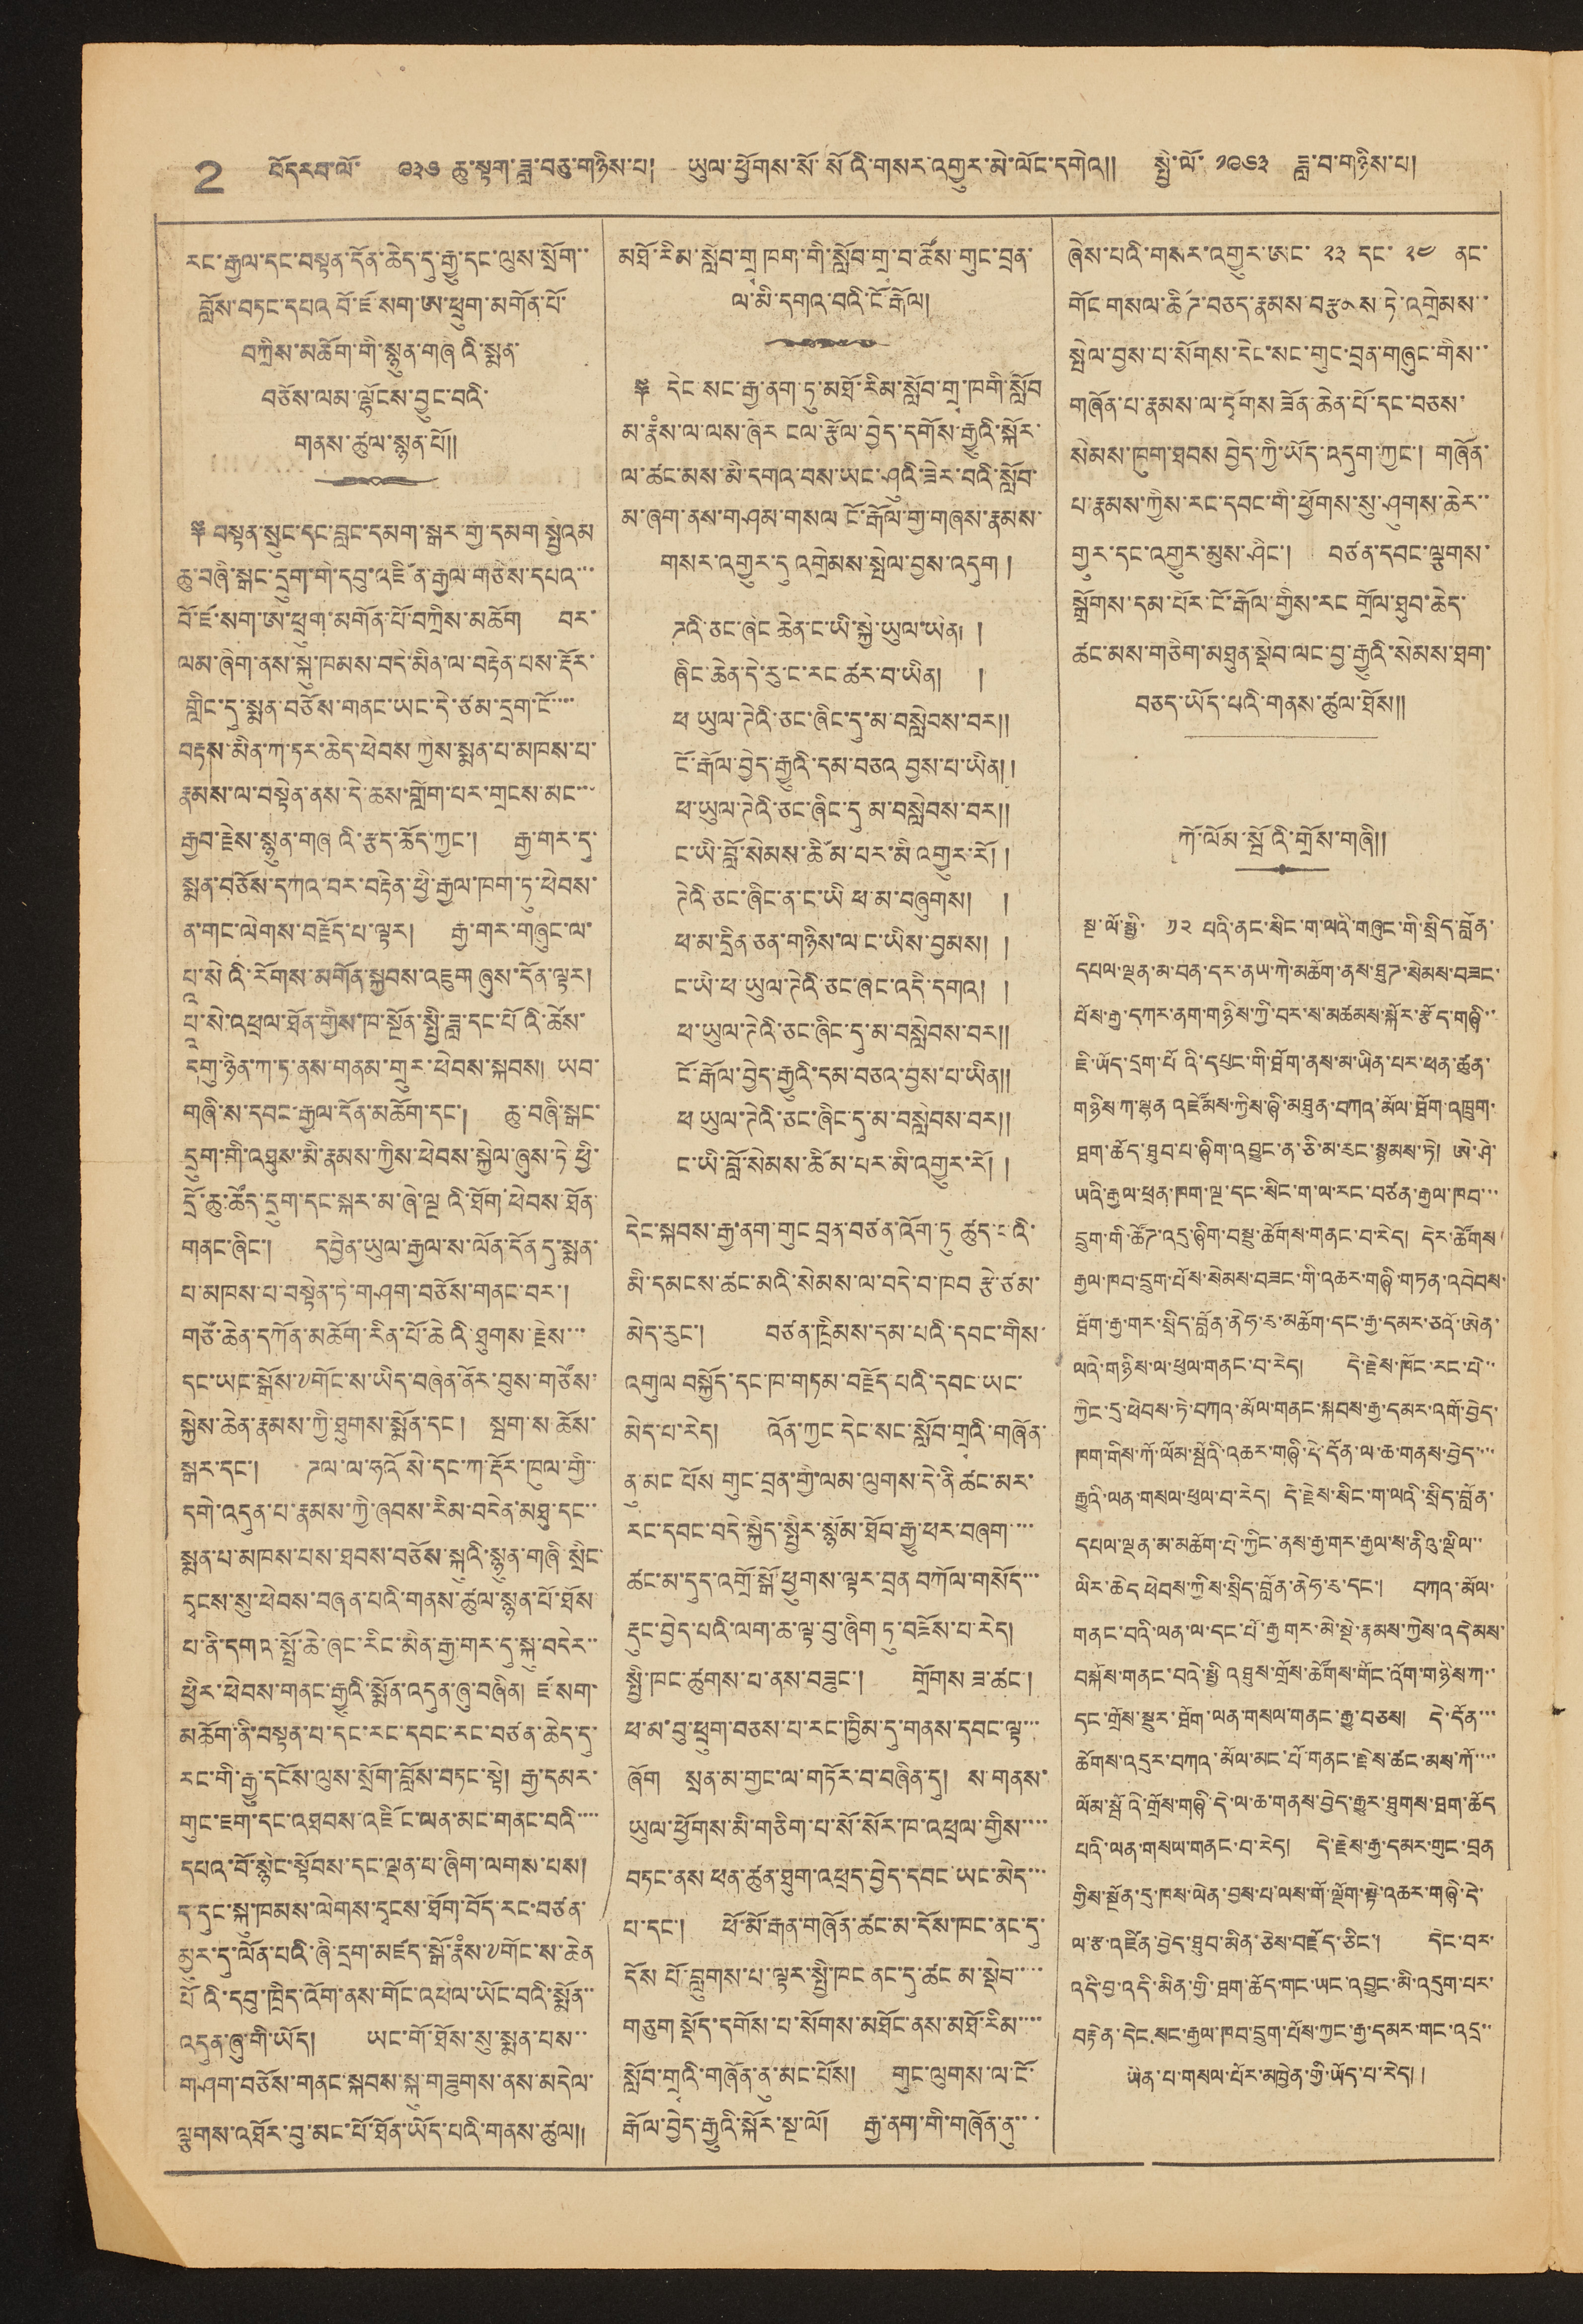2 བོདརབ་ལོ་ ༩༣༦ ཆུ་སྟག་ཟླ་བཅུ་གཉིས་པ། ཡུལ་ཕྱོགས་སོ་སོའི་གསར་འགྱུར་མེ་ལོང་དགེའི།། སྤྱི་ལོ་ ༡༩༦༣ ཟླ་བ་གཉིས་པ།
རང་རྒྱལ་དང་བསྟན་དོན་ཆེད་དུ་རྒྱུ་དང་ལུས་སྲོག་་
བློས་བཏང་དཔའ་བོ་ཇོ་སག་ཨ་ཕྲུག་མགོན་པོ་
བཀྲིས་མཆོག་གི་སྙུན་གཞིའི་སྨན་
བཅོས་ལམ་ལྷོངས་བྱུང་བའི་
གནས་ཚུལ་སྙན་པོ།།
༈ བསྟན་སྲུང་དང་བླང་དམག་སྒར་གྱ་དམག སྤྱིའམ་
ཆུ་བཞི་སྒང་དྲུག་གི་དབུ་འཛིན་རྒྱལ་གཅེས་དཔའ་་་
བོ་ཇོ་སག་ཨ་ཕྲུག་མགོན་པོ་བཀྲིས་མཆོག བར་
ལམ་ཞིག་ནས་སྐུ་ཁམས་བདེ་མིན་ལ་བརྟེན་པས་རྡོར་
གླིང་དུ་སྨན་བཅོས་གནང་ཡང་དེ་ཙམ་དྲག་ངོ་་་་
བརྟན་མིན་ཀ་ཏར་ཆེད་ཕེབས ཀྱིས་སྨན་པ་མཁས་པ་
རྣམས་ལ་བསྟེན་ནས་དེ་ཆས་གློག་པར་གྲངས་མང་་་
རྒྱབ་རྗེས་སྙུན་གཞའི་རྩད་ཆོད་ཀྱང་། རྒྱ་གར་དུ་
སྨན་བཅོས་དཀའ་བར་བརྟེན་ཕྱི་རྒྱལ་ཁག་ཏུ་ཕེབས་
ན་གང་ལེགས་བརྗོད་པ་ལྟར། རྒྱ་གར་གཞུང་ལ་
པཱ་སེའི་རོགས་མགོན་སྐྱབས་འཇུག ཞུས་དོན་ལྟར།
པཱ་སེ་འཕྲན་ཐོན་གྱིས་ཁ་སྔོན་ཟླ་དང་པོའི་ཚེས་
དགུ་ཉིན་ཀ་ཏ་ནས་གནམ་གྲུར་ཕེབས་སྐབས། ཡབ་
གཞི་ས་དབང་རྒྱལ་དོན་མཆོག་དང་། ཆུ་བཞི་སྒང་
དྲུག་གི་འཐུས་མི་རྣམས་ཀྱིས་ཕེབས་སྐྱེལ་ཞུས་ཏེ་ཕྱི་
དྲོ་ཆུ་ཚོད་དྲུག་དང་སྐར་མ་ཞེ་ལྔའི་ཐོག་ཕེབས་ཐོན་
གནང་ཞིང་། དབྱིན་ཡུལ་རྒྱལ་ས་ལོན་དོན དུ་སྨན་
པ་མཁས་པ་བསྟེན་ཏེ་གཤག་བཅོས་གནང་བར་།
གཙོ་ཆེན་དཀོན་མཆོག་རིན་པོ་ཆེའི་ཐུགས་རྗེས་་་
དང་ཡང་སྒོས་༸གོང་ས་ཡིད་བཞིན་ནོར་བུས་གཙོས་
སྐྱེན་ཆེན་རྣམས་ཀྱི་ཐུགས་སྨོན་དང། སྦག་ས ཆོས་
སྒར་དང་། ཌལ་ལ་ཧའོ སེ་དང་ཀ་རྡོར་ཁུལ་གྱི་་
དགེ་འདུན་པ་རྣམས་ཀྱི་ཞབས་རིམ་བདེན་མཐུ་དང་་
སྨན་པ་མཁས་པས་ཐབས་བཅོས་སྐུའི་སྙུན་གཞི་སྲིང་
དྭངས་སུ་ཕེབས་བཞན་པའི་གནས་ཚུལ་སྙན་པོ་ཐོས་
པ་ནི་དགའ་སྤྲོ་ཆེ་ཞང་རིང་མིན་རྒྱ་གར་དུ་སྐུ་བདེར་་
ཕྱིར་ཕེབས་གནང་རྒྱུའི་སྨོན་འདུན་ཞུ་བཞིན། ཛ་སག་
མཆོག་ནི་བསྟན་པ་དང་རང་དབང་རང་བཙན་ཆེད་དུ་
རང་གི་རྒྱུ་དངོས་ལུས་སློག་བློས་བཏང་སྟེ། རྒྱ་དམར་
གུང་ཇག་དང་འཐབས་འཛིང་ལན་མང་གནང་བའི་་་་
དཔའ་བོ་སྙིང་སྟོབས་དང་ལྡན་པ་ཞིག་ལྒས་པས།
ད་དུང་སྐུ་ཁམས་ལེགས་དྭངས་ཐོག་བོད་རང་བཙན་
མྱུར་དུ་ལོན་པའི་ཞི་དྲག་མཛད་སྒོ་རྣས་༸གོང་ས་ཆེན
པོའི་དབུ་ཁྲིད་འོག་ནས་གོང་འཕེལ་ཡོང་བའི་སྨོན་་
འདུན་ཞུ་གི་ཡོད། ཡང་གོ་ཐོས་སུ་སྨན་པས་་
གཤག་བཅོས་གནང་སྐབས་སྐུ་གཟུགས་ནས་མདེལ་
ལྕགས་འཐོར་བུ་མང་པོ་ཐོན་ཡོད་པའི་གནས་ཚུལ།།
མཐོ་རིམ་སློབ་གྲྭ ཁག་གི་སློབ་གྲྭ་བ་ཚོས་གུང་བྲན་
ལ་མི་དགའ་བའི་ངོ་རྒོལ།
༈ དེང་སང་རྒྱ་ནག་ཏུ་མཐོ་རིམ་སློབ་གྲྭ་ཁགི་སློབ
མ་རྣཾས་ལ་ལས་ཞོར ངལ་རྩོལ་བྱེད་དགོས་རྒྱུའི་སྐོར་
ལ་ཚང་མས་མི་དགའ་བས་ཡང་ཤུའི་ཟེར་བའི་སློབ་
མ་ཞག་ནས་གཤམ་གསལ ངོ་རྒོལ་གྱ་གཞས་རྣམས་
གསར་འགྱུར་དུ འགྲེམས་སྤེལ་བྱས་འདུག །
ཌའི་ཅང་ཞིང ཆེན་ང་ཡི་སྐྱེ་ཡུལ་ཡིན། །
ཞིང་ཆེན་དེ་རུ་ང་རང་ཚར་བ་ཡིན། །
ཕ ཡུལ་ཊེའི་ཅང་ཞིང་དུ་མ་བསླེབས་བར།།
ངོ་རྒོལ་བྱེད་རྒྱུའི་དམ་བཅའ བྱས་པ་ཡིན།།
ཕ་ཡུལ་ཊེའི་ཅང་ཞིང་དུ་མ་སླེབས་བར།།
ང་ཡི་བློ་སེམས་ཚིམ་པར་མི་འགྱུར་རོ། །
ཊེའི་ཅང་ཞིང་ན་ང་ཡི ཕ་མ་བཞུགས། །
ཕ་མ་དྲིན་ཅན་གཉིས་ལ་ང་ཡིས་བྱམས། །
ང་ཡི་ཕ་ཡུལ་ཊེའི་ཅང་ཞང་འདི་དགའ། །
ཕ་ཡུལ་ཊེའི་ཅང་ཞིང་དུ་མ་སླེབས་བར།།
ངོ་རྒོལ་བྱེད་རྒྱུའི་དམ་བཅའ་བྱས་པ་ཡིན།།
ཕ ཡུལ་ཊེའི་ཅང་ཞིང་དུ་མ་བསླེབས་བར།།
ང་ཡི་བློ་སེམས་ཚིམ་པར་མི་འགྱུར་རོ། །
དེང་སྐབས་རྒྱ་ནང་གུང བྲན་བཙན་འོག་ཏུ ཚུད་པའི་
མི་དམངས་ཚང་མའི་སེམས་ལ་བདེ་བ་ཁབ རྩེ་ཙམ་
མེད་རུང་། བཙན་ཁྲིམས་དམ་པའི་དབང་གིས་
འགུལ བསྐྱོད་དང་ཁ་གཏམ་བརྗོད་པའི་དབང་ཡང་
མེད་པ་རེད། འོན་ཀྱང་དེང་སང་སློབ་གྲྭའི་གཞོན་
ནུ་མང པོས གུང་བྲན་གྱི་ལམ་ལུགས་དེ་ནི་ཚང་མར་
རང་དབང་བདེ་སྐྱིད་སྤྱིར་སྙོམ་ཐོབ་རྒྱུ་ཕར་བཞག་་་་
ཚང་མ་དུད་དུ་འགྲོ་སྒོ་ཕྱུགས་ལྟར་བྲན བཀོལ་གསོད་་་
རྡུང་བྱེད་པའི་ལག་ཆ་ལྟ་བུ་ཞིག ཏུ་བཟོས་པ་རེད།
སྤྱི་ཁང་ཚུགས་པ་ནས་བཟུང་། གྲོགས་ཟ་ཚང་།
ཕ་མ་བུ་ཕྲུག་བཅས་པ་རང་ཁྱིམ་དུ་གནས་དབང་ལྟ་་་
ཞིག སྲན་མ་གྱང་ལ་གཏོར་བ་བཞིན་དུ། ས་གནས་
ཡུལ་ཕྱོགས་མི་གཅིག་པ་སོ་སོར་ཁ་འཕྲལ་གྱིས་་་་
བཏང་ནས་ཕན་ཚུན་ཐུག་འཕྲད་བྱེད་དབང ཡང་མེད་་་
པ་དང་། ཕོ་མོ་རྒན་གཞོན་ཚང་མ་དོས་ཁང་ནང་དུ་
དོས་ པོ་བླུགས་པ་ལྟར་སྤྱི་ཁང ནང་དུ་ཚང་མ་སྡེབ་་་་་
གཅུག སྡོད་དགོས་པ་སོགས་པ་སོགས་མཐོང་ནས་མཐོ་རིམ་་་་
སློབ་གྲྭའི་གཞོན་ནུ་མང་པོས། གུང་ལུགས་ལ་ངོ་
རྒོལ་བྱེད་རྒྱུའི་སྐོར་སྔ་ལོ། རྒྱ་ནག་གི་གཞིན་ནུ་་་
ཞེས་པའི་གསར་འགྱུར་ཨང་ ༢༣ དང་ ༢༤ ནང་
གོང་གསལ་ཚིཌ་བཅད་རྣམས་བརྩམས་ཏེ་འགྲེམས་་
སྤེལ་བྱས་པ་སོགས་དེང་སང་གུང་བྲན་གཞུང་གིས་་
གཞོན་པ་རྣམས་ལ་དྭོགས་ཟོན་ ཆེན་པོ་དང་བཅས་
སེམས་ཁུག་ཐབས་བྱེད་ཀྱི་ཡོད་འདུག་ཀྱང་། གཞོན་
པ་རྣམས་ཀྱིས་རང་དབང་གི་ཕྱོགས་སུ་ཤུགས་ཆེར་་
གྱུར་དང་འགྱུར་མུས་ཤིང་། བཙན་དབང་ལྕགས་
སྒྲོགས་དམ་པོར་ངོ་རྒོལ་གྱིས་རང གྲོལ་ཐུབ་ཆེད་
ཚང་མས་གཅིག་མཐུན་སྡེབ་ལང་བྱ་རྒྱུའི་སེམས་ཐག་
བཅད་ཡོད་པའི་གནས་ཚུལ་ཐོས།།
ཀོ་ལོམ་སྦོའི་གྲོས་གཞི།།
སྔ་ལོ་སྤྱི་ ༡༢ པའི་ནང་སིང་ག་ལའི་གཞུང་གི་སྲིད་བློན་
དཔལ་ལྡན་མ་བན་དར་ནཡ་ཀེ་མཆོག་ནས་ཐུཊ་སེམས་བཟང་
པོས་རྒྱ་དཀར་ནག་གཉིས་ཀྱི་བར་ས་མཚམས་སྐོར་རྩོད་གཞི་་
ཇི་ཡོད་དྲག་པོའི་དཔུང་གི་ཐོག་ནས་མ་ཡིན་པར་ཕན་ཚུན་
གཉིས་ཀ་ལྷན་འཛོམས་ཀྱིས་ཞི་མཐུན་བཀའ་མོལ་ཐོག་འཁྲུག་
ཐག་ཆོད་ཐུབ་པ་ཞིག་འབྱུང་ན་ཅི་མ་རུང་སྙམས་ཏེ། ཨེ་ཤེ་
ཡའི་རྒྱལ་ཕྲན་ཁག་ལྔ་དང་སིང་ག་ལ་རང་བཙན་རྒྱལ་ཁབ་་་
དྲུག་གི་ཚོཊ་འདུ་ཞིག་བསྡུ་ཚོགས་གནང་བ་རེད། དེར་ཚོགས་
རྒྱལ་ཁབ་དྲུག་པོས་སེམས་བཟང་གི་འཆར་གཞི་གཏན་འབེབས་
ཐོག་རྒྱ་གར་སྲིད་བློན་ནེཧ་རུ་མཆོག་དང་རྒྱ་དམར་ཅའོ་ཨེན་
ལའི་གཉིས་ལ་ཕུལ་གནང་བ་རེད། དེ་རྗེས་ཁོང་རང་པེ་་
ཀྱིང་དུ་ཕེབས་ཏེ་བཀའ་མོལ་གནང་སྐབས་རྒྱ་དམར་འགོ་བྱེད་
ཁག་གིས་ཀོ་ལོམ་སྤོའི་འཆར་གཞི་དེ་དོན་ལ་ཆ་གནས་བྱེད་་་་
རྒྱུའི་ལན་གསལ་ཕུལ་བ་རེད། དེ་རྗེས་སིང་ག་ལའི་སྲིད་བློན་
དཔལ་ལྡན་མ་མཆོག་པེ་ཀྱིང་ནས་རྒྱ་གར་རྒྱལ་ས་ནིའུ་ལྡིལ་་
ལིར་ཆེད ཕེབས་ཀྱིས་སྲིད་བློན་ནེཧརུ་དང་། བཀའ་མོལ་
གནང་བའི་ལན་ལ་དང་པོ་རྒྱ་གར་མེ་སྡེ་རྣམས་ཀྱིས་འདེམས་
བསྐོས་གནང་བའི་སྤྱི འཐུས་གྲོས་ཚོགས་གོང་འོག་གཉིས་ཀ་་
དང་གྲོས་སྡུར་ཐོག་ལན་གསལ་གནང་རྒྱུ་བཅས། དེ་དོན་་་
ཆོགས་འདུར་བཀའ་མོལ་མང་པོ་གནང་རྗེས་ཚང་མས་ཀོ་་་་
ལོམ་སྦོའི་གྲོས་གཞི་དེ་ལ་ཆ་གནས་བྱེད་རྒྱུར་ཐུགས་ཐག་ཆོད
པའི་ལན་གསལ་གནང་བ་རེད། དེ་རྗེས་རྒྱ་དམར་གུང་བྲན
གྱིས་སྔོན་དུ་ཁས་ལེན་བུས་པ་ལས་གོ་ལྡོག་སྟེ་འཆར་གཞི་དེ་
ལ་རྩ་འཛིན་བྱེད་ཐུབ་མིན་ཅེས་བརྗོད་ཅིང་། དེང་བར་
འདི་བྱ་འདི་མིན་གྱི་ཐག་ཆོད་གང་ཡང་འབྱུང་མི་འདུག་པར་
བརྟེན་དེང སང་རྒྱལ་ཁབ་དྲུག་པོས་ཀྱང་རྒྱ་དམར་གང་འདྲ་་
ཡིན་པ་གསལ་པོར་མཁྱེན་གྱི་ཡོད་པ་རེད། །
